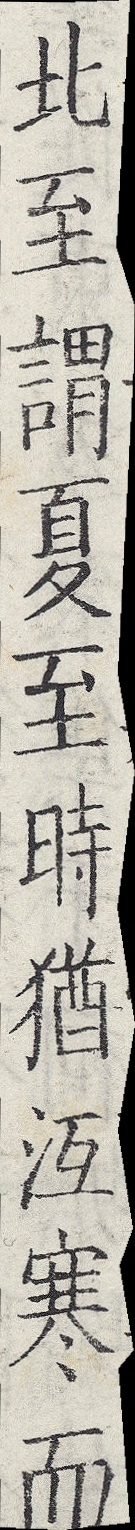北至謂夏至時猶沍寒而
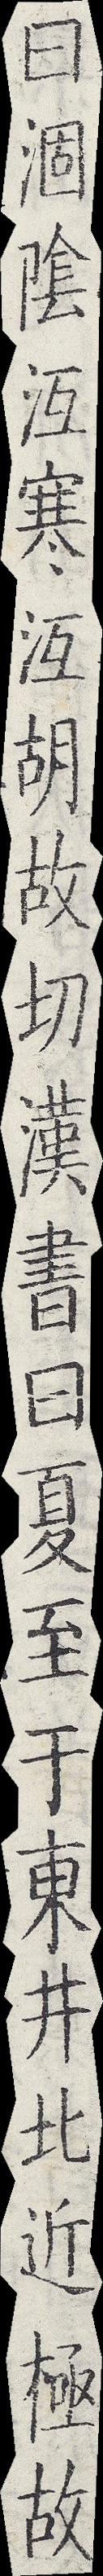曰涸陰沍寒沍胡故切漢書曰夏至于東井北近極故
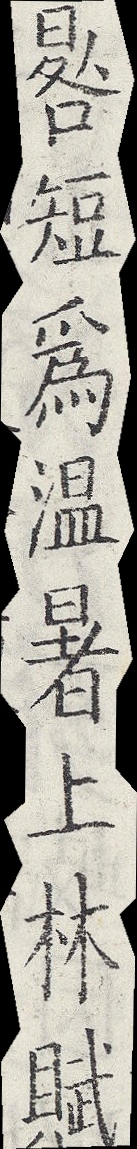晷短為温暑上林賦
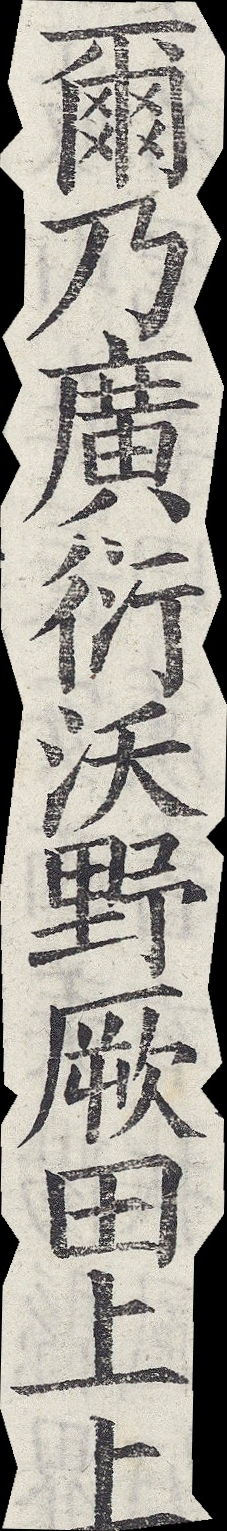爾乃廣衍沃野厥田上上
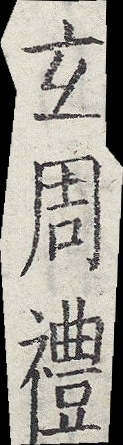玄周禮
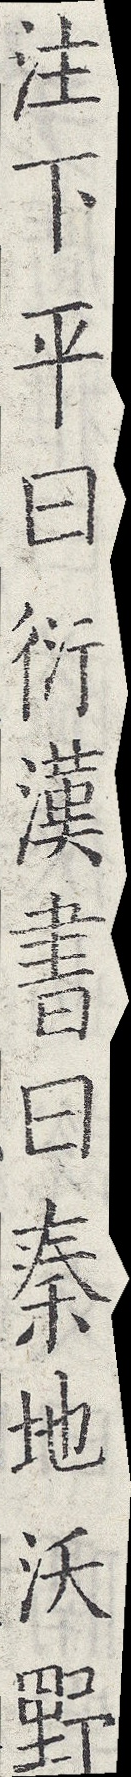注下平曰衍漢書曰秦地沃野
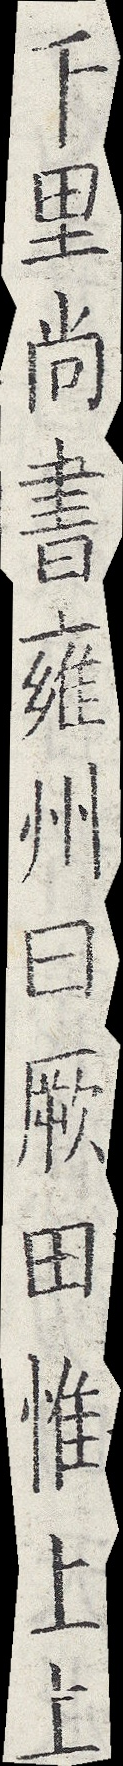千里尚書雍州曰厥田惟上上
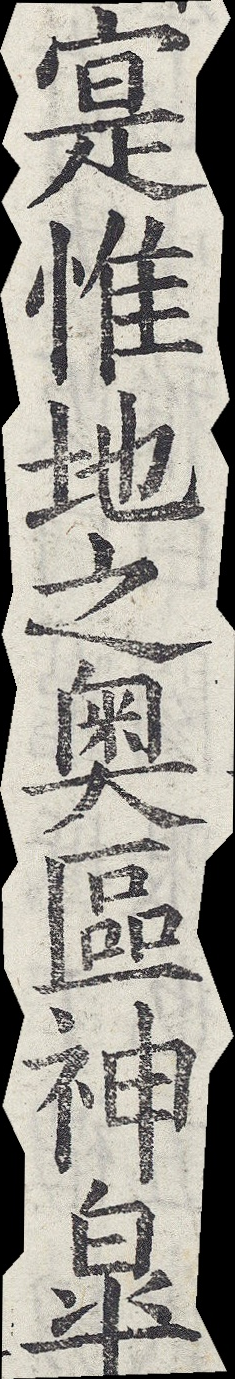寔惟地之奧區神皐
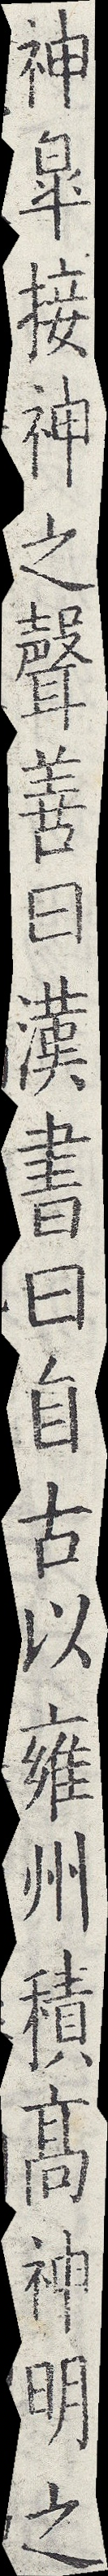神皐接神之聲善曰漢書曰自古以雍州積高神明之
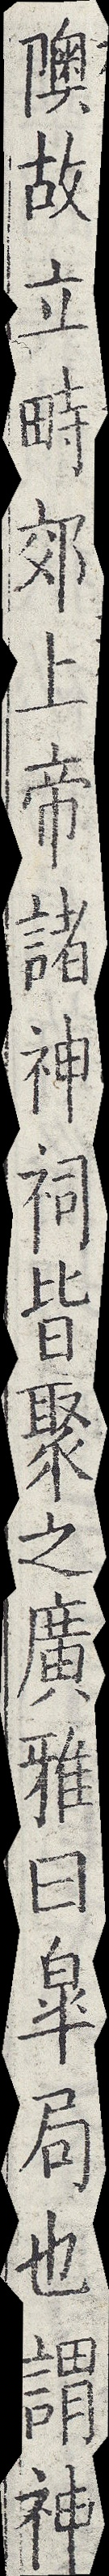隩故立畤郊上帝諸神祠皆聚之廣雅曰皐局也謂神
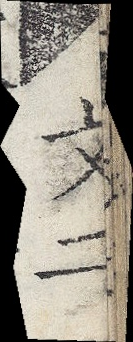文二
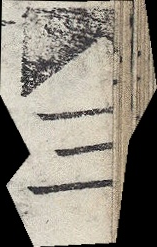三
